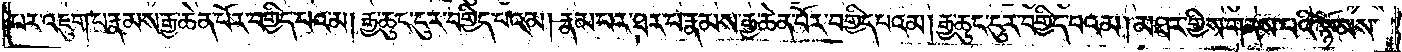པར་འཇུག་པ་རྣམས་རྒྱ་ཆེན་པོར་བགྱིད་པའམ། རྒྱ་ཆུང་ངུར་བགྱིད་པའམ། རྣམ་པར་ཐར་པ་རྣམས་རྒྱ་ཆེན་པོར་བགྱིད་པའམ། རྒྱ་ཆུང་ངུར་བགྱིད་པའམ། མཐར་གྱིས་གནས་པའི་སྙོམས་
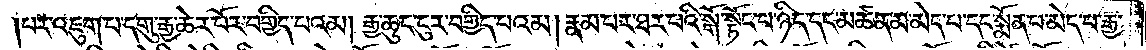པར་འཇུག་པ་དགུ་རྒྱ་ཆེན་པོར་བགྱིད་པའམ། རྒྱ་ཆུང་ངུར་བགྱིད་པའམ། རྣམ་པར་ཐར་པའི་སྒོ་སྟོང་པ་ཉིད་དང་མཚན་མ་མེད་པ་དང་སྨོན་པ་མེད་པ་རྒྱ་
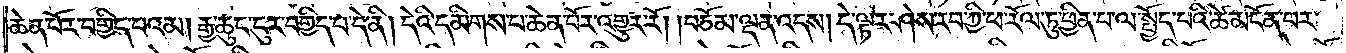ཆེན་པོར་བགྱིད་པའམ། རྒྱ་ཆུང་ངུར་བགྱིད་པ་དེ་ནི། དེའི་དམིགས་པ་ཆེན་པོར་འགྱུར་རོ། །བཅོམ་ལྡན་འདས། དེ་ལྟར་ཤེས་རབ་ཀྱི་ཕ་རོལ་ཏུ་ཕྱིན་པ་ལ་སྤྱོད་པའི་ཚེ་མངོན་པར་
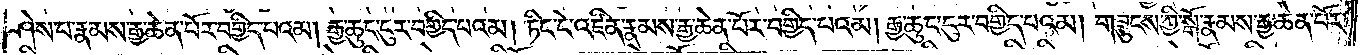ཤེས་པ་རྣམས་རྒྱ་ཆེན་པོར་བགྱིད་པའམ། རྒྱ་ཆུང་ངུར་བགྱིད་པའམ། ཏིང་ངེ་འཛིན་རྣམས་རྒྱ་ཆེན་པོར་བགྱིད་པའམ། རྒྱ་ཆུང་ངུར་བགྱིད་པའམ། གཟུངས་ཀྱི་སྒོ་རྣམས་རྒྱ་ཆེན་པོར་
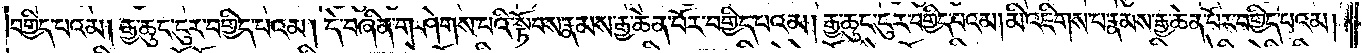བགྱིད་པའམ། རྒྱ་ཆུང་ངུར་བགྱིད་པའམ། དེ་བཞིན་གཤེགས་པའི་སྟོབས་རྣམས་རྒྱ་ཆེན་པོར་བགྱིད་པའམ། རྒྱ་ཆུང་ངུར་བགྱིད་པའམ་མི་འཇིགས་པ་རྣམས་རྒྱ་ཆེན་པོར་བགྱིད་པའམ།
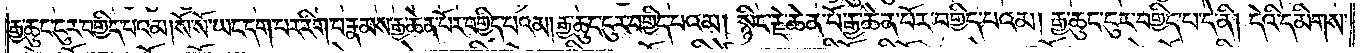རྒྱ་ཆུང་ངུར་བགྱིད་པའམ། སོ་སོ་ཡང་དག་པར་རིག་པ་རྣམས་རྒྱ་ཆེན་པོར་བགྱིད་པའམ། རྒྱ་ཆུང་ངུར་བགྱིད་པའམ། སྙིང་རྗེ་ཆེན་པོ་རྒྱ་ཆེན་པོར་བགྱིད་པའམ། རྒྱ་ཆུང་ངུར་བགྱིད་པ་དེ་ནི། དེའི་དམིགས་
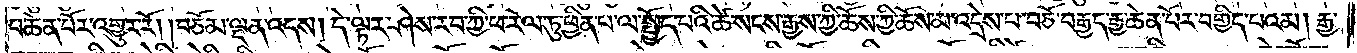པ་ཆེན་པོར་འགྱུར་རོ། །བཅོམ་ལྡན་འདས། དེ་ལྟར་ཤེས་རབ་ཀྱི་ཕ་རོལ་ཏུ་ཕྱིན་པ་ལ་སྤྱོད་པའི་ཚེ་སངས་རྒྱས་ཀྱི་ཆོས་མ་འདྲེས་པ་བཅོ་བརྒྱད་རྒྱ་ཆེན་པོར་བགྱིད་པའམ། རྒྱ་
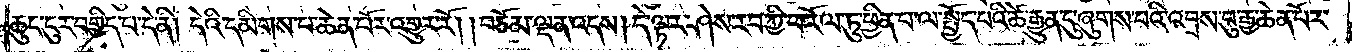ཆུང་ངུར་བགྱིད་པ་དེ་ནི། དེའི་དམིགས་པ་ཆེན་པོར་འགྱུར་རོ། །བཅོམ་ལྡན་འདས། དེ་ལྟར་ཤེས་རབ་ཀྱི་ཕ་རོལ་ཏུ་ཕྱིན་པ་ལ་སྤྱོད་པའི་ཚེ་རྒྱུན་དུ་ཞུགས་པའི་འབྲས་བུ་རྒྱ་ཆེན་པོར་
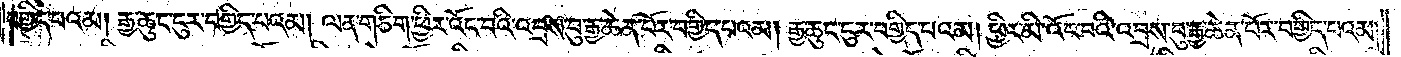བགྱིད་པའམ། རྒྱ་ཆུང་ངུར་བགྱིད་པའམ། ལན་གཅིག་ཕྱིར་འོང་བའི་འབྲས་བུ་རྒྱ་ཆེན་པོར་བགྱིད་པའམ། རྒྱ་ཆུང་ངུར་བགྱིད་པའམ། ཕྱིར་མི་འོང་བའི་འབྲས་བུ་རྒྱ་ཆེན་པོར་བགྱིད་པའམ།
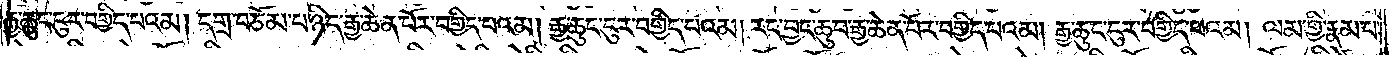རྒྱ་ཆུང་ངུར་བགྱིད་པའམ། དགྲ་བཅོམ་པ་ཉིད་རྒྱ་ཆེན་པོར་བགྱིད་པའམ། རྒྱ་ཆུང་ངུར་བགྱིད་པའམ། རང་བྱང་ཆུབ་རྒྱ་ཆེན་པོར་བགྱིད་པའམ། རྒྱ་ཆུང་ངུར་བགྱིད་པའམ། ལམ་གྱི་རྣམ་པ་
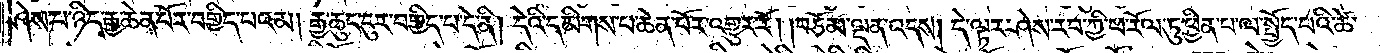ཤེས་པ་ཉིད་རྒྱ་ཆེན་པོར་བགྱིད་པའམ། རྒྱ་ཆུང་ངུར་བགྱིད་པ་དེ་ནི། དེའི་དམིགས་པ་ཆེན་པོར་འགྱུར་རོ། །བཅོམ་ལྡན་འདས། དེ་ལྟར་ཤེས་རབ་ཀྱི་ཕ་རོལ་ཏུ་ཕྱིན་པ་ལ་སྤྱོད་པའི་ཚེ་
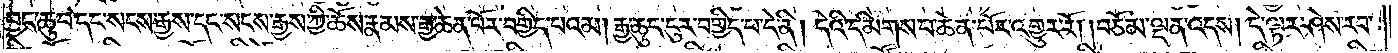བྱང་ཆུབ་དང་སངས་རྒྱས་དང་སངས་རྒྱས་ཀྱི་ཆོས་རྣམས་རྒྱ་ཆེན་པོར་བགྱིད་པའམ། རྒྱ་ཆུང་ངུར་བགྱིད་བ་དེ་ནི། དེའི་དམིགས་པ་ཆེན་པོར་འགྱུར་རོ། །བཅོམ་ལྡན་འདས། དེ་ལྟར་ཤེས་རབ་
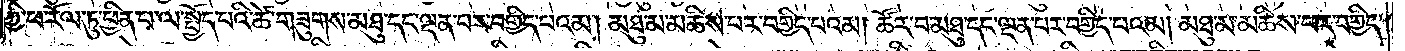ཀྱི་ཕ་རོལ་ཏུ་ཕྱིན་པ་ལ་སྤྱོད་པའི་ཚེ་གཟུགས་མཐུ་དང་ལྡན་པར་བགྱིད་པའམ། མཐུ་མ་མཆིས་པར་བགྱིད་པའམ། ཚོར་བ་མཐུ་དང་ལྡན་པར་བགྱིད་པའམ། མཐུ་མ་མཆིས་པར་བགྱིད་
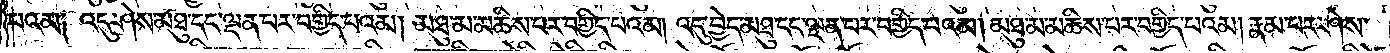པའམ༑ འདུ་ཤེས་མཐུ་དང་ལྡན་པར་བགྱིད་པའམ། མཐུ་མ་མཆིས་པར་བགྱིད་པའམ། འདུ་བྱེད་མཐུ་དང་ལྡན་པར་བགྱིད་པའམ། མཐུ་མ་མཆིས་པར་བགྱིད་པའམ། རྣམ་པར་ཤེས་
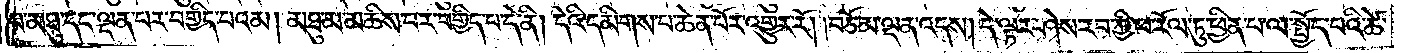པ་མཐུ་དང་ལྡན་པར་བགྱིད་པའམ། མཐུ་མ་མཆིས་པར་བགྱིད་པ་དེ་ནི། དེའི་དམིགས་པ་ཆེན་པོར་འགྱུར་རོ། །བཅོམ་ལྡན་འདས། དེ་ལྟར་ཤེས་རབ་ཀྱི་ཕ་རོལ་ཏུ་ཕྱིན་པ་ལ་སྤྱོད་པའི་ཚེ་
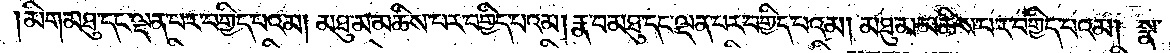མིག་མཐུ་དང་ལྡན་པར་བགྱིད་པའམ། མཐུ་མ་མཆིས་པར་བགྱིད་པའམ། རྣ་བ་མཐུ་དང་ལྡན་པར་བགྱིད་པའམ། མཐུ་མ་མཆིས་པར་བགྱིད་པའམ། སྣ་
